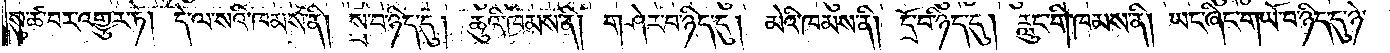སུ་ཚ་བར་འགྱུར་ཏེ། དེ་ལ་སའི་ཁམས་ནི། སྲ་བ་ཉིད་དུ། ཆུའི་ཁམས་ནི། གཤེར་བ་ཉིད་དུ། མེའི་ཁམས་ནི། དྲོ་བ་ཉིད་དུ། རླུང་གི་ཁམས་ནི། ཡང་ཞིང་གཡོ་བ་ཉིད་དུ་ཉེ་
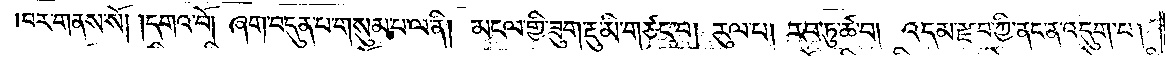བར་གནས་སོ། །དགའ་བོ། ཞག་བདུན་པ་གསུམ་པ་ལ་ནི། མངལ་གྱི་ཟུག་རྡུ་མི་གཙང་བ། རུལ་པ། རབ་ཏུ་ཚ་བ། འདམ་རྫབ་ཀྱི་ནང་ན་འདུག་པ།
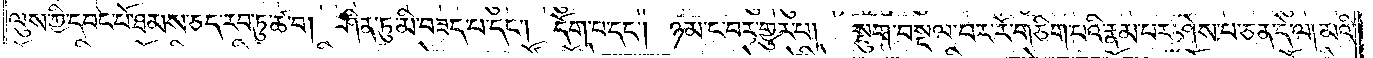ལུས་ཀྱི་དབང་པོ་ཐམས་ཅད་རབ་ཏུ་ཚ་བ། ཤིན་ཏུ་མི་བཟད་པ་དང༌། དོག་པ་དང༌། ཉམ་ང་བར་གྱུར་པ། སྡུག་བསྔལ་བར་རོ་གཅིག་པའི་རྣམ་པར་ཤེས་པ་ཅན་དེ་ལ། མའི་
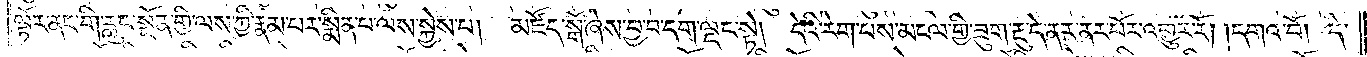ལྟོར་ནང་གི་རླུང་སྔོན་གྱི་ལས་ཀྱི་རྣམ་པར་སྨིན་པ་ལས་སྐྱེས་པ། མཛོད་སྒོ་ཞེས་བྱ་བ་དག་ལྡང་སྟེ། དེའི་རེག་པས་མངལ་གྱི་ཟུག་རྡུ་དེ་ནར་ནར་པོར་འགྱུར་རོ། །དགའ་བོ། དེ་
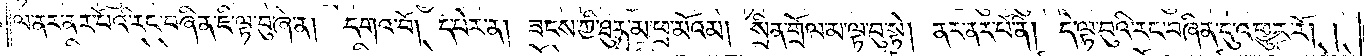ལ་ནར་ནར་པོའི་རང་བཞིན་ཇི་ལྟ་བུ་ཞེ་ན། དགའ་བོ། དཔེར་ན། ཟབས་ཀྱི་ཐུར་མ་ཕྲ་མོའམ། སྲིན་གྲོལ་མ་ལྟ་བུ་སྟེ། ནར་ནར་པོ་ནི། དེ་ལྟ་བུའི་རང་བཞིན་དུ་འགྱུར་རོ། །
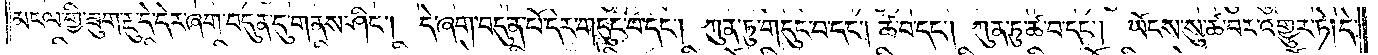མངལ་གྱི་ཟུག་རྡུ་དེ་དེར་ཞག་བདུན་དུ་གནས་ཤིང༌། དེ་ཞག་བདུན་པོ་དེར་གདུང་བ་དང༌། ཀུན་ཏུ་གདུང་བ་དང༌། ཚ་བ་དང༌། ཀུན་ཏུ་ཚ་བ་དང༌། ཡོངས་སུ་ཚ་བར་འགྱུར་ཏེ། དེ་
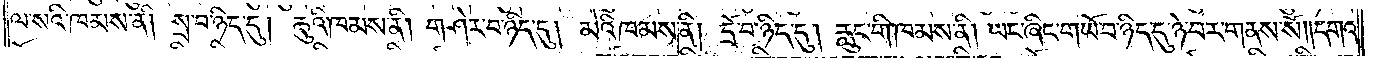ལ་སའི་ཁམས་ནི། སྲ་བ་ཉིད་དུ། ཆུའི་ཁམས་ནི། གཤེར་བ་ཉིད་དུ། མེའི་ཁམས་ནི། དྲོ་བ་ཉིད་དུ། རླུང་གི་ཁམས་ནི། ཡང་ཞིང་གཡོ་བ་ཉིད་དུ་ཉེ་བར་གནས་སོ། །དགའ་
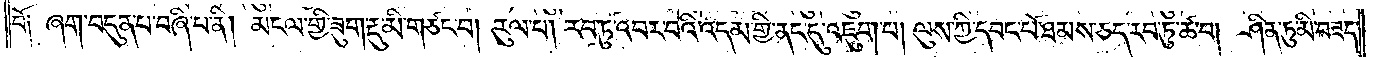བོ། ཞག་བདུན་པ་བཞི་པ་ནི། མངལ་གྱི་ཟུག་རྡུ་མི་གཙང་བ། རུལ་པ། རབ་ཏུ་འབར་བའི་འདམ་གྱི་ནང་དུ་འཇུག་པ། ལུས་ཀྱི་དབང་པོ་ཐམས་ཅད་རབ་ཏུ་ཚ་བ། ཤིན་ཏུ་མི་བཟད་
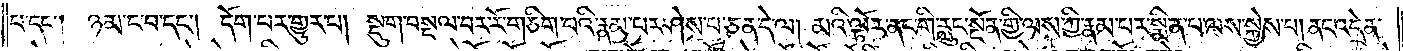པ་དང༌། ཉམ་ང་བ་དང༌། དོག་པར་གྱུར་པ། སྡུག་བསྔལ་བར་རོ་གཅིག་པའི་རྣམ་པར་ཤེས་པ་ཅན་དེ་ལ། མའི་ལྟོར་ནང་གི་རླུང་སྔོན་གྱི་ལས་ཀྱི་རྣམ་པར་སྨིན་པ་ལས་སྐྱེས་པ། ནང་འདྲེན་
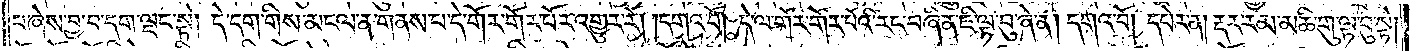པ་ཞེས་བྱ་བ་དག་ལྡང་སྟེ། དེ་དག་གིས་མངལ་ན་གནས་པ་དེ་གོར་གོར་པོར་འགྱུར་རོ། །དགའ་བོ། དེ་ལ་གོར་གོར་པོའི་རང་བཞིན་ཇི་ལྟ་བུ་ཞེ་ན། དགའ་བོ། དཔེར་ན། རྡར་རམ་མཆི་གུ་ལྟ་བུ་སྟེ།
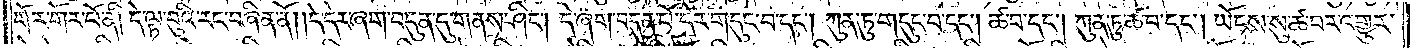གོར་གོར་པོ་ནི། དེ་ལྟ་བུའི་རང་བཞིན་ནོ། །དེ་དེར་ཞག་བདུན་དུ་གནས་ཤིང༌། དེ་ཞག་བདུན་པོ་དེར་གདུང་བ་དང༌། ཀུན་ཏུ་གདུང་བ་དང༌། ཚ་བ་དང༌། ཀུན་ཏུ་ཚ་བ་དང༌། ཡོངས་སུ་ཚ་བར་འགྱུར་
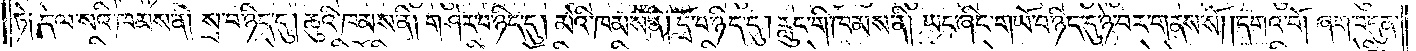ཏེ། དེ་ལ་སའི་ཁམས་ནི། སྲ་བ་ཉིད་དུ། ཆུའི་ཁམས་ནི། གཤེར་བ་ཉིད་དུ། མེའི་ཁམས་ནི། དྲོ་བ་ཉིད་དུ། རླུང་གི་ཁམས་ནི། ཡང་ཞིང་གཡོ་བ་ཉིད་དུ་ཉེ་བར་གནས་སོ། །དགའ་བོ། ཞག་བདུན་
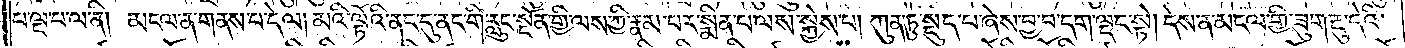པ་ལྔ་པ་ལ་ནི། མངལ་ན་གནས་པ་དེ་ལ། མའི་ལྟོའི་ནང་དུ་ནང་གི་རླུང་སྔོན་གྱི་ལས་ཀྱི་རྣམ་པར་སྨིན་པ་ལས་སྐྱེས་པ། ཀུན་ཏུ་སྡུད་པ་ཞེས་བྱ་བ་དག་ལྡང་སྟེ། དེས་ན་མངལ་གྱི་ཟུག་རྔུ་དེའི་
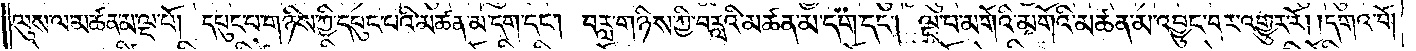ལུས་ལ་མཚན་མ་ལྔ་པོ། དཔུང་པ་གཉིས་ཀྱི་དཔུང་པའི་མཚན་མ་དག་དང༌། བརླ་གཉིས་ཀྱི་བརླའི་མཚན་མ་དག་དང༌། ལྔ་པ་མགོའི་མགོའི་མཚན་མ་འབྱུང་བར་འགྱུར་རོ། །དགའ་བོ།
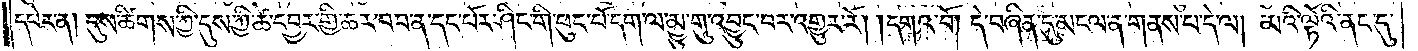དཔེར་ན། དུས་ཚིགས་ཀྱི་དུས་ཀྱི་ཚེ་དབྱར་གྱི་ཚར་བབ་ན་དང་པོར་ཤིང་གི་ཕུང་བོ་དག་ལ་མྱུ་གུ་འབྱུང་བར་འགྱུར་རོ། །དགའ་བོ། དེ་བཞིན་དུ་མངལ་ན་གནས་པ་དེ་ལ། མའི་ལྟོའི་ནང་དུ་
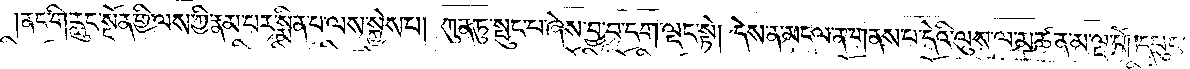ནང་གི་རླུང་སྔོན་གྱི་ལས་ཀྱི་རྣམ་པར་སྨིན་པ་ལས་སྐྱེས་པ། ཀུན་ཏུ་སྤུང་པ་ཞེས་བྱ་བ་དག་ལྡང་སྟེ། དེས་ན་མངལ་ན་གནས་པ་དེའི་ལུས་ལ་མཚན་མ་ལྔ་པོ། །དཔུང་
